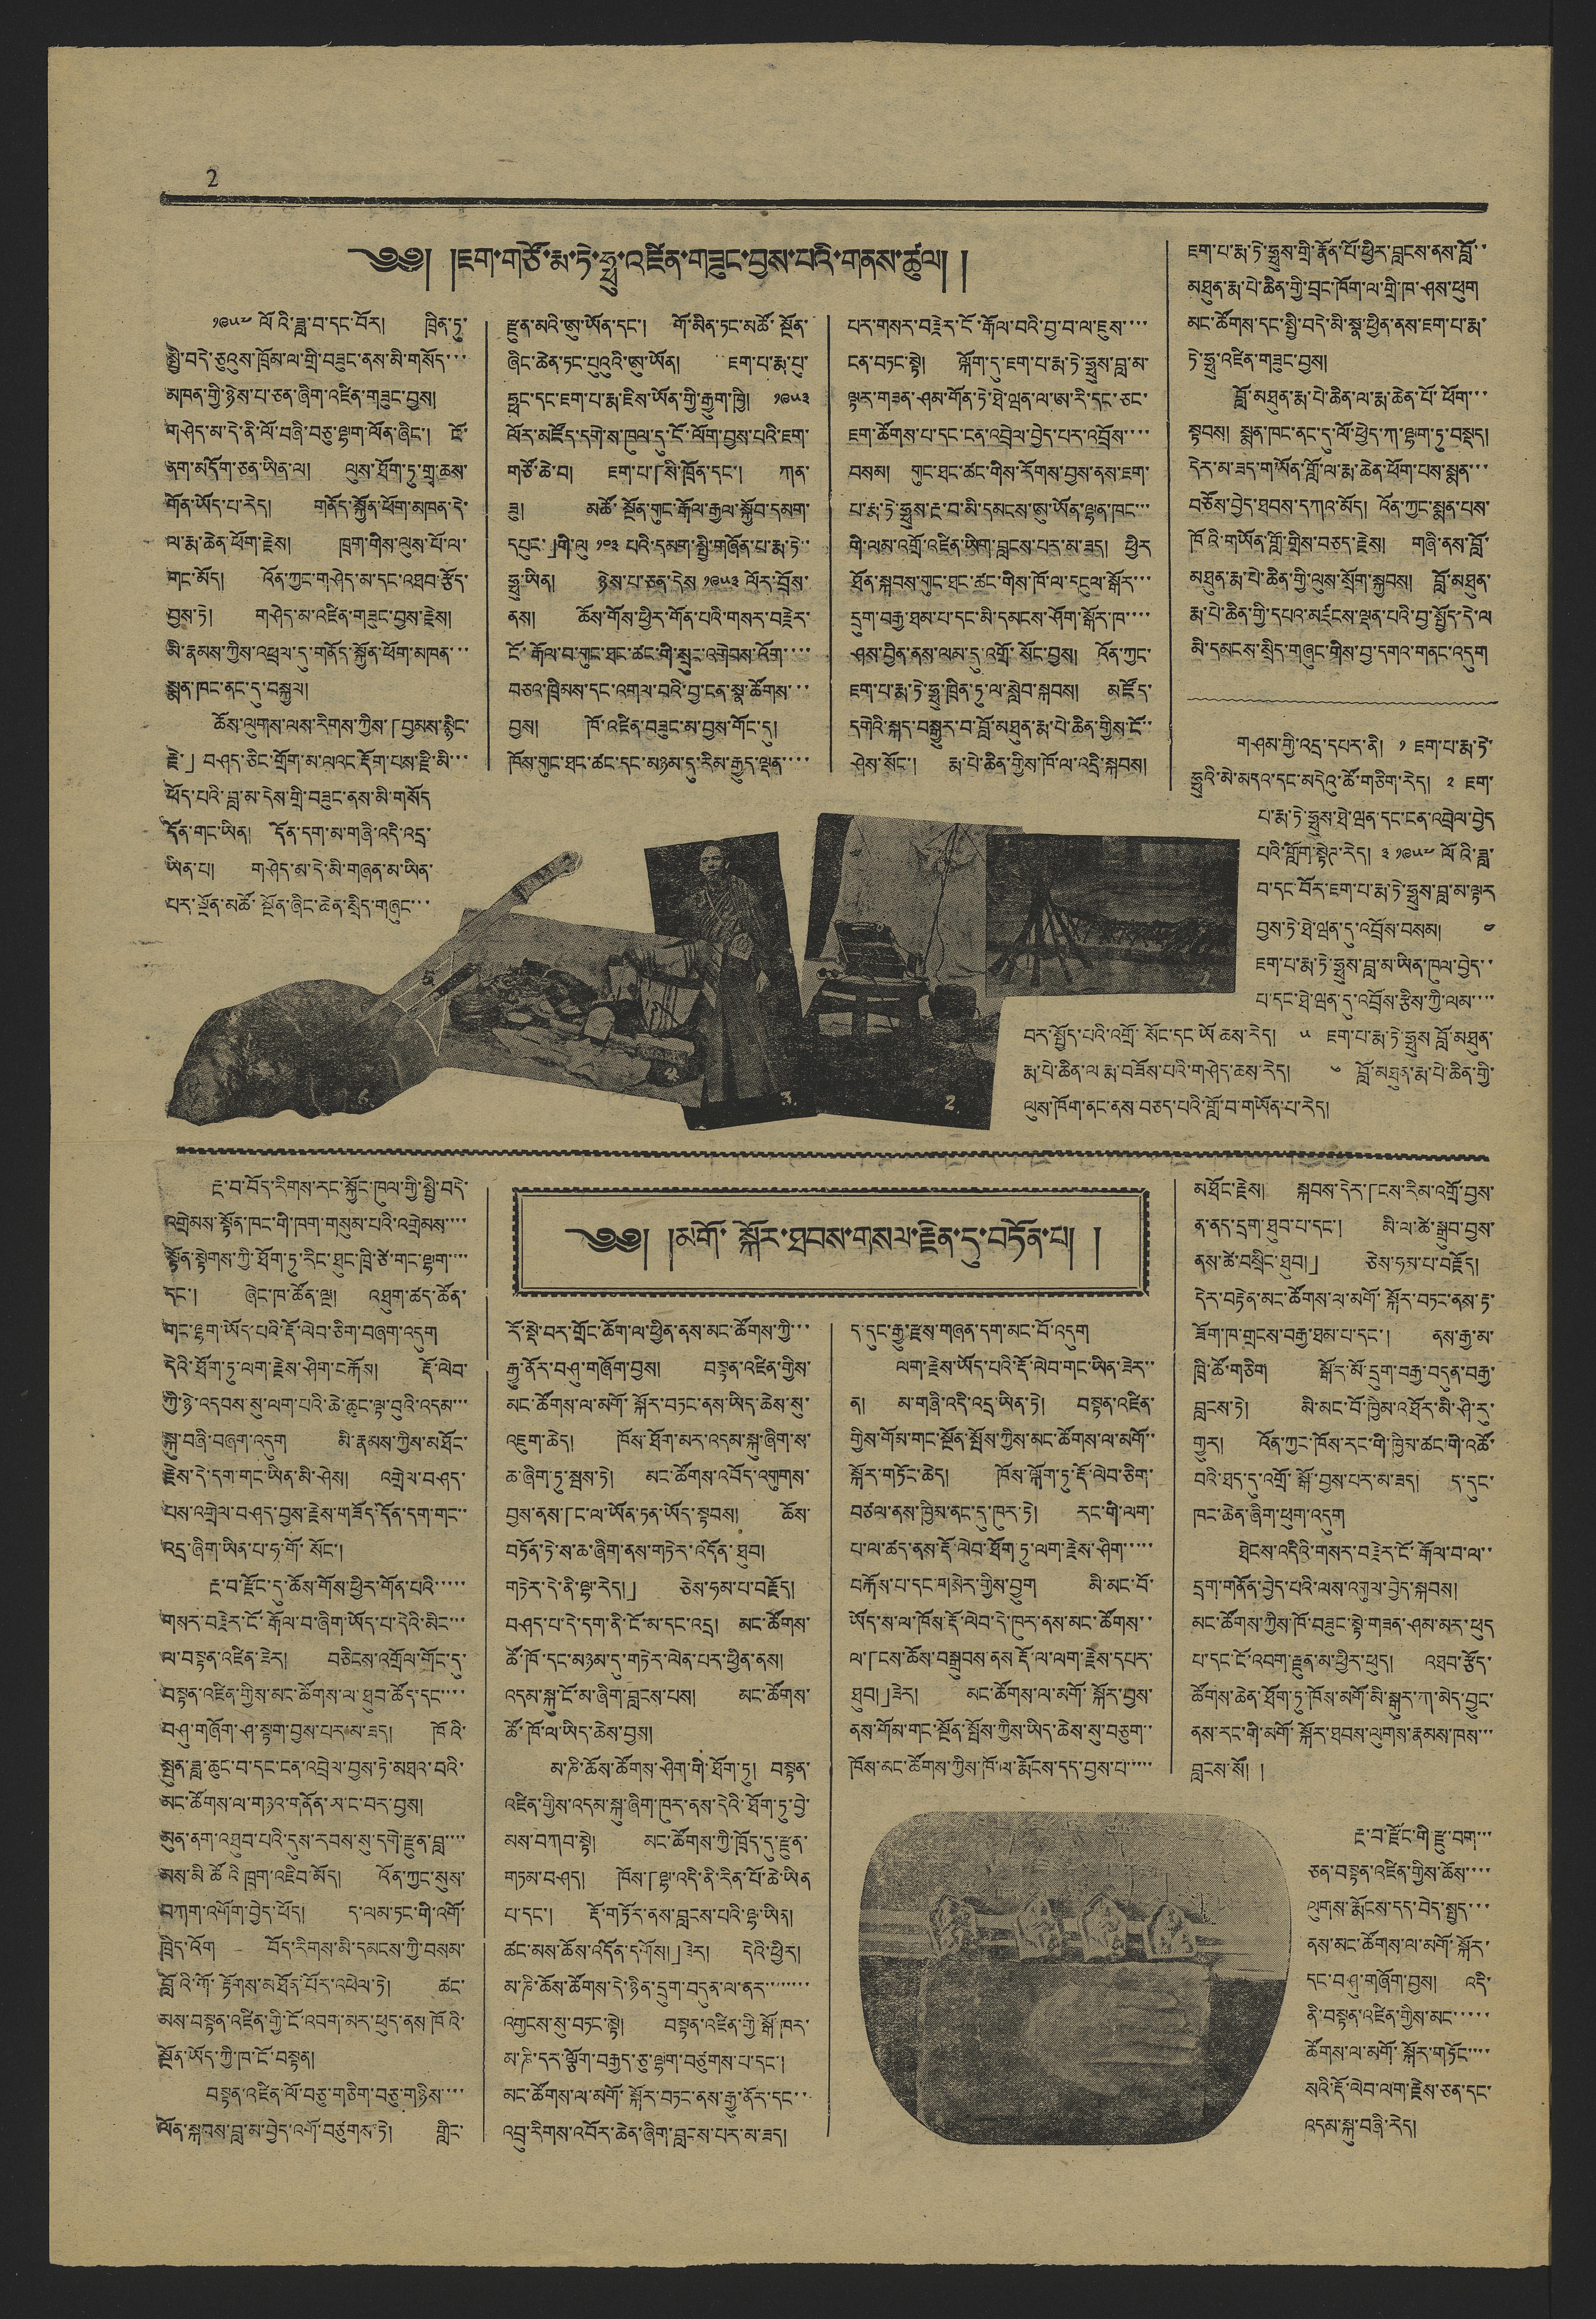2
༄༅། །ཇག་གཙོ་རྨ་ཏེ་ཧྥུ་འཛིན་གཟུང་བྱས་པའི་གནས་ཚུལ། །
༡༩༥༧ ལོའི་ཟླ་བ་དང་བོར། ཁྲིན་ཏུ་
སྤྱི་བདེ་ཅུའུས་ཁྲོམ་ལ་གྲི་བཟུང་ནས་མི་གསོད་་་
མཁན་གྱི་ཉེས་པ་ཅན་ཞིག་འཛིན་གཟུང་བྱས།
གཤེད་མ་དེ་ནི་ལོ་བཞི་བཅུ་ལྷག་ལོན་ཞིང་། ངོ་
ནག་མདོག་ཅན་ཡིན་ལ། ལུས་ཐོག་ཏུ་གྲྭ་ཆས་
གོན་ཡོད་པ་རེད། གནོད་སྐྱོན་ཕོག་མཁན་དེ་
ལ་རྨ་ཆེན་ཕོག་རྗེས། ཁྲག་གིས་ལུས་པོ་ལ་
གང་མོད། འོན་ཀྱང་གཤེད་མ་དང་འཐབ་རྩོད་
བྱས་ཏེ། གཤེད་མ་འཛིན་གཟུང་བྱས་རྗེས།
མི་རྣམས་ཀྱིས་འཕྲལ་དུ་གནོད་སྐྱོན་ཕོག་མཁན་་་
སྨན་ཁང་ནང་དུ་བསྐྱལ།
ཆོས་ལུགས་ལས་རིགས་ཀྱིས་「བྱམས་སྙིང་
རྗེ་」བཤད་ཅིང་གྲོག་མ་ལའང་རྡོག་པས་རྫི་མི་་་
ཕོད་པའི་བླ་མ་དེས་གྲི་བཟུང་ནས་མི་གསོད
དོན་གང་ཡིན། དོན་དག་མ་གཞི་འདི་འདྲ་
ཡིན་པ། གཤེད་མ་དེ་མི་གཞན་མ་ཡིན་
པར་སྔོན་མཚོ་སྔོན་ཞིང་ཆེན་སྲིད་གཞུང་་་
རྫུན་མའི་ཨུ་ཡོན་དང་། གོ་མིན་ཏང་མཚོ་སྔོན་
ཞིང་ཆེན་ཏང་པུའུའི་ཨུ་ཡོན། ཇག་པ་རྨ་པུ་
ཧྥང་དང་ཇག་པ་རྨ་ཇིས་ཡོན་གྱི་རྒྱུག་ཁྱི། ༡༩༥༣
ལོར་མཛོད་དགེ་ས་ཁུལ་དུ་ངོ་ལོག་བྱས་པའི་ཇག་
གཙོ་ཆེ་བ། ཇག་པ་「སི་ཁྲོན་དང་། ཀན་
ཟུ། མཚོ་སྔོན་གུང་རྒོལ་རྒྱལ་སྐྱོབ་དམག་
དཔུང་」གི་ལུ ༡༠༣ པའི་དམག་སྤྱི་གཞོན་པ་རྨ་ཏེ་་
ཧྥུ་ཡིན། ཉེས་པ་ཅན་དེས ༡༩༥༣ ལོར་བྲོས་
ནས། ཆོས་གོས་ཕྱིར་གོན་པའི་གསར་བརྗེར་
ངོ་རྒོལ་བ་གུང་ཐང་ཚང་གི་སྲུང་འགེབས་འོག་་་་
བཅའ་ཁྲིམས་དང་འགལ་བའི་བྱ་ངན་སྣ་ཚོགས་་་
བྱས། ཁོ་འཛིན་བཟུང་མ་བྱས་གོང་དུ།
ཁོས་གུང་ཐང་ཚང་དང་མཉམ་དུ་རིམ་རྒྱུད་ལྡན་་་་
པར་གསར་བརྗེར་ངོ་རྒོལ་བའི་བྱ་བ་ལ་ཇུས་་་་
ངན་བཏང་སྟེ། ལྐོག་དུ་ཇག་པ་རྨ་ཏེ་ཧྥུས་བླ་མ་
ལྟར་གཟན་ཤམ་གོན་ཏེ་ཐེ་ཝན་ལ་ཨ་རི་དང་ཅང་
ཇག་ཚོགས་པ་དང་ངན་འབྲེལ་བྱེད་པར་འབྲོས་་་་
བསམ། གུང་ཐང་ཚང་གིས་རོགས་བྱས་ནས་ཇག་
པ་རྨ་ཏེ་ཧྥུས་རྔ་བ་མི་དམངས་ཨུ་ཡོན་ལྷན་ཁང་་་
གི་ལམ་འགྲོ་འཛིན་ཡིག་བླངས་པར་མ་ཟད། ཕྱིར
ཐོན་སྐབས་གུང་ཐུང་ཚང་གིས་ཁོ་ལ་དངུལ་སྒོར་་་
དྲུག་བརྒྱ་ཐམ་པ་དང་མི་དམངས་ཤོག་སྒོར་ཁ་་་་
ཤས་བྱིན་ནས་ལམ་དུ་འགྲོ་སོང་བྱས། འོན་ཀྱང་
ཇག་པ་རྨ་ཏེ་ཧྥུ་ཁྲིན་ཏུ་ལ་སླེབ་སྐབས། མཛོད་
དགེའི་སྐད་བསྒྱུར་བ་བློ་མཐུན་རྨ་པེ་ཆིན་གྱིས་ངོ་་
ཤེས་སོང་། རྨ་པེ་ཆིན་གྱིས་ཁོ་ལ་འདྲི་སྐབས།
ཇག་པ་རྨ་ཏེ་ཧྥུས་གྲི་རྣོན་པོ་ཕྱིར་བླངས་ནས་བློ་་
མཐུན་རྨ་པེ་ཆིན་གྱི་བྲང་ཁོག་ལ་གྲི་ཁ་ཤས་ཕུག
མང་ཚོགས་དང་སྤྱི་བདེ་མི་སྣ་ཕྱིན་ནས་ཇག་པ་རྨ་
ཏེ་ཧྥུ་འཛིན་གཟུང་བྱས།
བློ་མཐུན་རྨ་པེ་ཆིན་ལ་རྨ་ཆེན་པོ་ཕོག་་་
སྟབས། སྨན་ཁང་ནང་དུ་ལོ་ཕྱེད་ཀ་ལྷག་ཏུ་བསྡད།
དེར་མ་ཟད་གཡོན་གློ་ལ་རྨ་ཆེན་ཕོག་པས་སྨན་་་
བཅོས་བྱེད་ཐབས་དཀའ་མོད། འོན་ཀྱང་སྨན་པས་
ཁོའི་གཡོན་གློ་གྲིས་བཅད་རྗེས། གཞི་ནས་བློ་
མཐུན་རྨ་པེ་ཆིན་གྱི་ལུས་སྲོག་སྐྱབས། བློ་མཐུན་
རྨ་པེ་ཆིན་གྱི་དཔའ་མཛངས་ལྡན་པའི་བྱ་སྤྱོད་དེ་ལ
མི་དམངས་སྲིད་གཞུང་གིས་བྱ་དགའ་གནང་འདུག
གཤམ་གྱི་འདྲ་དཔར་ནི། ༡ ཇག་པ་མ་ཏེ་
ཧྥུའི་མེ་མདའ་དང་མདེའུ་ཚོ་གཅིག་རེད། ༢ ཇག་
པ་རྨ་ཏེ་ཧྥུས་ཐེ་ཝན་དང་ངན་འབྲེལ་བྱེད་
པའི་གློག་སྟེཊ་རེད། ༣ ༡༩༥༧ ལོའི་ཟླ་
བ་དང བོར་ཇག་པ་རྨ་ཏེ་ཧྥུས་བླ་མ་ལྟར
བྱས་ཏེ་ཐེ་ཝན་དུ་འབྲོས་བསམ། ༤
ཇག་པ་རྨ་ཏེ་ཧྥུས་བླ་མ་ཡིན་ཁུལ་བྱེད་་
པ་དང་ཐེ་ཝན་དུ་འབྲོས་རྩིས་ཀྱི་ལམ་་་་
བར་སྤྱོད་པའི་འགྲོ་སོང་དང་ཡོ ཆས་རེད། ༥ ཇག་པ་རྨ་ཏེ་ཧྥུས བློ་མཐུན་
རྨ་པེ་ཆིན་ལ རྨ་བཟོས་པའི་གཤེད་ཆས་རེད། ༦ བློ་མཐུན་རྨ་པེ་ཆིན་གྱི་
ལུས་ཁོག་ནང་ནས་བཅད་པའི་གློ་བ་གཡོན་པ་རེད།
༄༅། །མགོ་སྐོར་ཐབས་གསལ་རྗེན་དུ་བཏོན་པ། །
རྔ་བ་བོད་རིགས་རང་སྐྱོང་ཁུལ་གྱི་སྤྱི་བདེ་
འགྲེམས་སྟོན་ཁང་གི་ཁག་གསུམ་པའི་འགྲེམས་་་་
སྟོན་སྟེགས་ཀྱི་ཐོག་ཏུ་རིང་ཐུང་ཁྲི་ཙེ་གང་ལྷག་་་་
དང་། ཞེང་ཁ་ཚོན་ལྔ། འཐུག་ཚད་ཚོན་
གང་ལྷག་ཡོད་པའི་རྡོ་ལེབ་ཅིག་བཞག་འདུག
དེའི་ཐོག་ཏུ་ལག་རྗེས་ཤིག་བརྐོས། རྡོ་ལེབ་
ཀྱི་ཉེ་འདབས་སུ་ལག་པའི་ཆེ་ཆུང་ལྟ་བུའི་འདམ་་་
སྐུ་བཞི་བཞག་འདུག མི་རྣམས་ཀྱིས་མཐོང་
རྗེས་དེ་དག་གང་ཡིན་མི་ཤེས། འགྲེལ་བཤད་
པས་འགྲེལ་བཤད་བྱས་རྗེས་གཟོད་དོན་དག་གང་་
འདྲ་ཞིག་ཡིན་པ་ཧ་གོ་སོང་།
རྔ་བ་རྫོང་དུ་ཆོས་གོས་ཕྱིར་གོན་པའི་་་་་
གསར་བརྗེར་ངོ་རྒོལ་བ་ཞིག་ཡོད་པ་དེའི་མིང་་་
ལ་བསྟན་འཛིན་ཟེར། བཅིངས་འགྲོལ་གོང་དུ་
བསྟན་འཛིན་གྱིས་མང་ཚོགས་ལ་ཐུབ་ཚོད་དང་་་་
བཤུ་གཞོག་ཤ་སྟག་བྱས་པར་མ་ཟད། ཁོའི་
སྤུན་ཟླ་ཆུང་བ་དང་ངན་འབྲེལ་བྱས་ཏེ་མཐའ་བའི་
མང་ཚོགས་ལ་གཉའ་གནོན་མ་ང་བར་བྱས།
མུན་ནག་འཐབ་པའི་དུས་རབས་སུ་དགེ་རྫུན་བླ་་་་
མས་མི་ཚོའི ཁྲག་འཇིབ་མོད། འོན་ཀྱང་སུས་
བཀག་འགོག་བྱེད་ཕོད། ད་ལམ་ཏང་གི་འགོ་
ཁྲིད་འོག བོད་རིགས་མི་དམངས་ཀྱི་བསམ་
བློའི་གོ་རྟོགས་མཐོན་པོར་འཕེལ་ཏེ། ཚང་
མས་བསྟན་འཛིན་གྱི་ངོ་འབག་མར་ཕུད་ནས་ཁོའི་
སྔོན་ཡོད་ཀྱི་ཁ་ངོ་བསྟན།
བསྟན་འཛིན་ལོ་བཅུ་གཅིག་བཅུ་གཉིས་་་་
ལོན་སྐབས་བླ་མ་བྱེད་འགོ་བཙུགས་ཏེ། གླིང་
རོ་སྡེ་བར་གྲོང་ཆོག་ལ་ཕྱིན་ནས་མང་ཚོགས་ཀྱི་་་
རྒྱུ་ནོར་བཤུ་གཞོག་བྱས། བསྟན་འཛིན་གྱིས་
མང་ཚོགས་ལ་མགོ་སྐོར་བཏང་ནས་ཡིད་ཆེས་སུ་
འཇུག་ཆེད། ཁོས་ཐོག་མར་འདམ་སྐུ་ཞིག་ས་
ཆ་ཞིག་ཏུ་སྦས་ཏེ། མང་ཚོགས་འབོད་འགུགས་
བྱས་ནས་「ང་ལ་ཡོན་ཏན་ཡོད་སྟབས། ཆོས་
བཏོན་ཏེ་ས་ཆ་ཞིག་ནས་གཏེར་འདོན་ཐུབ།
གཏེར་དེ་ནི་ལྷ་རེད།」 ཅེས་ཧམ་པ་བརྗོད།
བཤད་པ་དེ་དག་ནི་ངོ་མ་དང་འདྲ། མང་ཚོགས་
ཚོ་ཁོ་དང་མཉམ་དུ་གཏེར་ལེན་པར་ཕྱིན་ནས།
འདམ་སྐུ་ངོ་མ་ཞིག་བླངས་པས། མང་ཚོགས་
ཚོ་ཁོ་ལ་ཡིད་ཆེས་བྱས།
མ་ཎི་ཆོས་ཚོགས་ཤིག་གི་ཐོག་ཏུ། བསྟན་
འཛིན་གྱིས་འདམ་སྐུ་ཞིག་ཁུར་ནས་དེའི་ཐོག་ཏུ་བྱེ་
མས་བཀབ་སྟེ། མང་ཚོགས་ཀྱི་ཁྲོད་དུ་རྫུན་
གཏམ་བཤད། ཁོས་「ལྷ་འདི་ནི་རིན་པོ་ཆེ་ཡིན
པ་དང་། རྡོ་གཏོར་ནས་བླངས་པའི་ལྷ་ཡིན།
ཚང་མས་ཆོས་འདོན་དགོས།」ཟེར། དེའི་ཕྱིར།
མ་ཎི་ཆོས་ཚོགས་དེ་ཉིན་དྲུག་བདུན་ལ་ནར་་་་་་་་
འགྱངས་སུ་བཏང་སྟ། བསྟན་འཛིན་གྱི་སྒོ་ཁར་
མ་ཎི་དར་ལྕོག་བརྒྱད་ཅུ་ལྷག་བཙུགས་པ་དང་།
མང་ཚོགས་ལ་མགོ་སྐོར་བཏང་ནས་རྒྱུ་ནོར་དང་་
འབྲུ་རིགས་འབོར་ཆེན་ཞིག་བླངས་པར་མ་ཟད།
ད་དུང་རྒྱུ་རྫས་གཞན་དག་མང་བོ་འདུག
ལག་རྗེས་ཡོད་པའི་རྡོ་ལེབ་གང་ཡིན་ཟེར་་
ན། མ་གཞི་འདི་འདྲ་ཡིན་ཏེ། བསྟན་འཛིན་
གྱིས་གོམ་གང་སྔོན་སྤོས་ཀྱིས་མང་ཚོགས་ལ་མགོ་་
སྐོར་གཏོང་ཆེད། ཁོས་ལྐོག་ཏུ་རྡོ་ལེབ་ཅིག་
བཙལ་ནས་ཁྱིམ་ནང་དུ་ཁུར་ཏེ། རང་གི་ལག་
པ་ལ་ཚད་ནས་རྡོ་ལེབ་ཐོག་ཏུ་ལག་རྗེས་ཤིག་་་་་
བརྐོས་པ་དང་གསེར་གྱིས་བྱུག མི་མང་བོ་
ཡོད་ས་ལ་ཁོས་རྡོ་ལེབ་དེ་ཁུར་ནས་མང་ཚོགས་་
ལ་「ངས་ཆོས་བསྒྲུབས་ནས རྡོ་ལ་ལག་རྗེས་དཔར་
ཐུབ།」ཟེར། མང་ཚོགས་ལ་མགོ་སྐོར་བྱས་
ནས་གོམ་གང་སྔོན་སྤོས་ཀྱིས་ཡིད་ཆེས་སུ་བཅུག་་
ཁོས་མང་ཚོགས་ཀྱིས་ཁོ་ལ་རྨོངས་དད་བྱས་པ་་་་་
མཐོང་རྗེས། སྐབས་དེར་「ངས་རིམ་འགྲོ་བྱས་
ན་ནད་དྲག་ཐུབ་པ་དང་། མི་ལ་ཚེ་སྒྲུབ་བྱས་
ནས་ཚེ་བསྲིང་ཐུབ།」 ཅེས་ཧམ་པ་བརྗོད།
དེར་བརྟེན་མང་ཚོགས་ལ་མགོ་སྐོར་བཏང་ནས་རྟ་
ཟོག་ཁ་གྲངས་བརྒྱ་ཐམ་པ་དང་། ནས་རྒྱ་མ་
ཁྲི་ཚོ་གཅིག སྒོར་མོ་དྲུག་བརྒྱ་བདུན་བརྒྱ་
བླངས་ཏེ། མི་མང་བོ་ཁྱིམ་འཐོར་མི་ཤི་རུ་
གྱུར། འོན་ཀྱང་ཁོས་རང་གི་ཁྱིམ་ཚང་གི་འཚོ་
བའི་ཐད་དུ་འགྲོ་སྒོ་བྱས་པར་མ་ཟད། ད་དུང་
ཁང་ཆེན་ཞིག་ཕུག་འདུག
ཐེངས་འདིའི་གསར་བརྗེར་ངོ་རྒོལ་བ་ལ་་
དྲག་གནོན་བྱེད་པའི་ལས་འགུལ་བྱེད་སྐབས།
མང་ཚོགས་ཀྱིས་ཁོ་བཟུང་སྟེ་གཟན་ཤམ་མར་ཕུད
པ་དང་ངོ་འབག་རྫུན་མ་ཕྱིར་ཕུད། འཐབ་རྩོད་
ཚོགས་ཆེན་ཐོག་ཏུ་ཁོས་མགོ་མི་སྒུར་ཀ་མེད་བྱུང་
ནས་རང་གི་མགོ་སྐོར་ཐབས་ལུགས་རྣམས་ཁས་་་
བླངས་སོ། །
རྔ་བ་རྫོང་གི་རྫུ་བག་་་
ཅན་བསྟན་འཛིན་གྱིས་ཆོས་་་་
ལུགས་རྨོངས་དད་བེད་སྤྱད་་་
ནས་མང་ཚོགས་ལ་མགོ་སྐོར་
དང་བཤུ་གཞོག་བྱས། འདི་
ནི་བསྟན་འཛིན་གྱིས་མང་་་་་
ཚོགས་ལ་མགོ་སྐོར་གཏོང་་་་
སའི་རྡོ་ལེབ་ལག་རྗེས་ཅན་དང
འདམ་སྐུ་བཞི་རེད།
